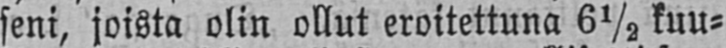seni, joista olin ollut eroitettuna 6½ kuu-
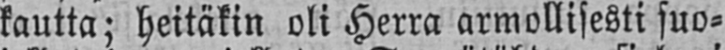kautta; heitäkin oli Herra armollisesti suo-
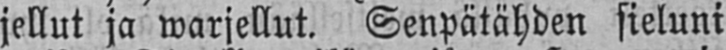jellut ja warjellut. Senpätähden sieluni
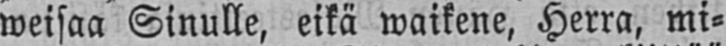weisaa Sinulle, eikä waikene, Herra, mi-
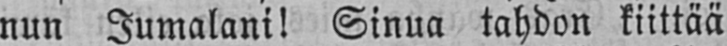nun Jumalani! Sinua tahdon kiittää
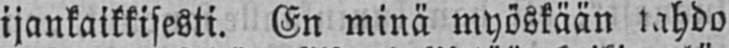ijankaikkisesti. En minä myöskään tahdo
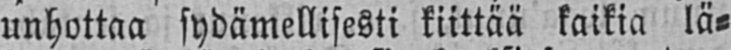unhottaa sydämellisesti kiittää kaikia lä-
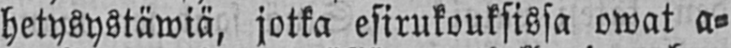hetysystäwiä, jotka esirukouksissa owat a-
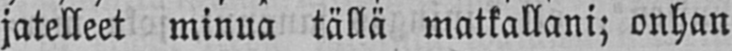jatelleet minua tällä matkallani; onhan
